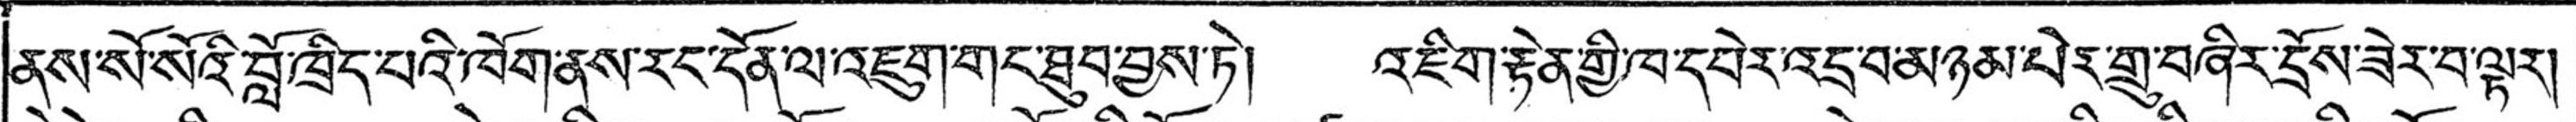ནས་སོ་སོའི་བློ་ཁྲིད་པའི་ཁོག་ནས་རང་དོན་ལ་འཇུག་གང་ཐུབ་བྱས་ཏེ། འཇིག་རྟེན་གྱི་ཁ་དཔེར་འདྲ་བ་མཉམ་པེར་གྲུ་བཞིར་དྲོས་ཟེར་བ་ལྟར།
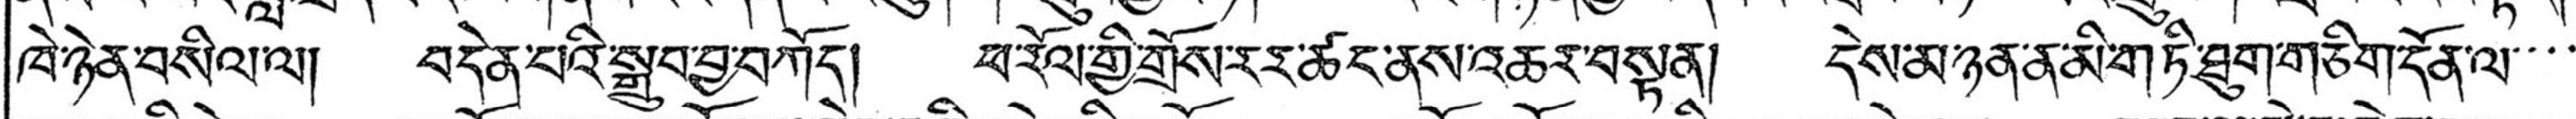ཁེ་ཉེན་བསིལ་ལ། བདེན་པའི་སྒྲུབ་བྱ་བཀོད། ཕ་རོལ་གྱི་གྲོས་རར་ཚང་ནས་འཆར་བསྟན། དེས་མ་ཉན་ན་མི་གཏི་ཐུག་གཅིག་དོན་ལ་་་་
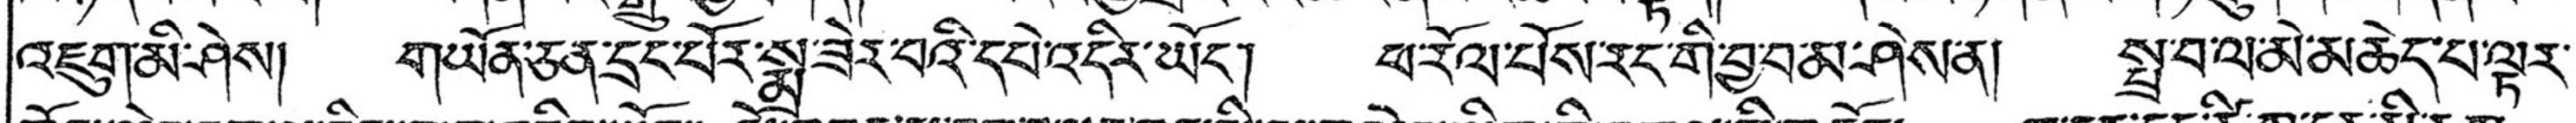འཇུག་མི་ཤེས། གཡོན་ཅན་དྲང་པོར་སྨྲ་ཟེར་བའི་དཔེ་འདིར་ཡོང་། ཕ་རོལ་པོས་རང་གི་བྱ་བ་མ་ཤེས་ན། སྤྲ་བ་ལ་མེ་མཆེད་པ་ལྟར་་
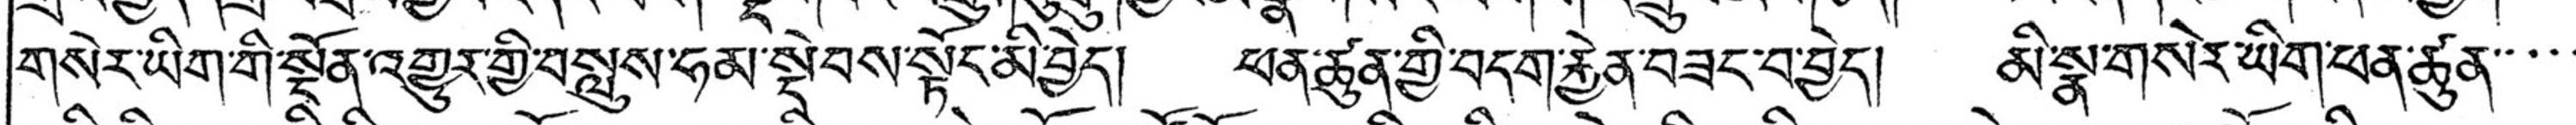གསེར་ཡིག་གི་སྔོན་འགྱུར་གྱི་བསླུས་ཧམ་སྡེབས་སྟོང་མི་བྱེད། ཕན་ཚུན་གྱི་བདག་རྐྱེན་བཟང་བ་བྱེད། མི་སྣ་གསེར་ཡིག་ཕན་ཚུན་་་་
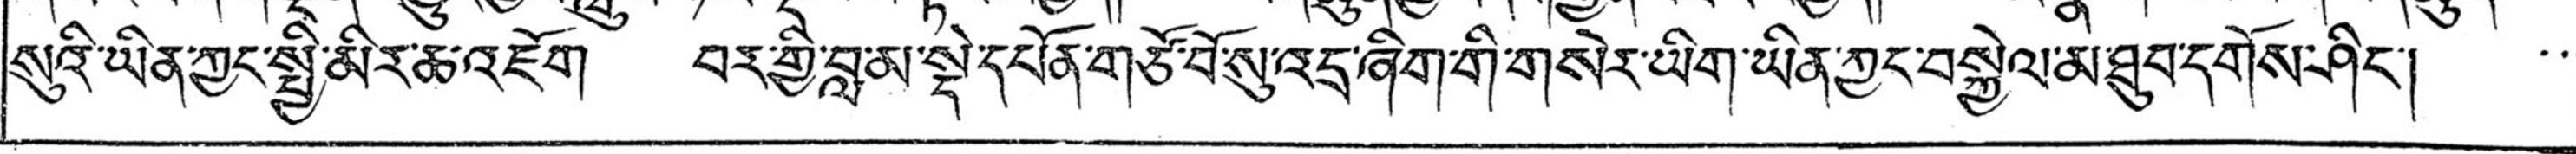སུའི་ཡིན་ཀྱང་སྤྱི་མིར་ཆ་འཇོག བར་གྱི་བླ་མ་སྡེ་དཔོན་གཙོ་བོ་སུ་འདྲ་ཞིག་གི་གསེར་ཡིག་ཡིན་ཀྱང་བསྐྱེལ་མ་ཐུབ་དགོས་ཤིང་། ་་་
